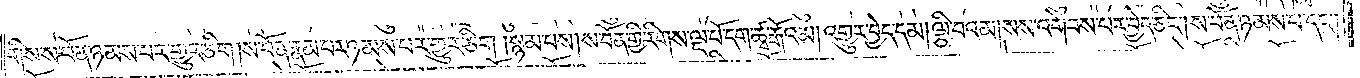གིས་ས་བོན་ཉམས་པར་གྱུར་ཅིག །ས་བོན་རྣམ་པར་ཉམས་པར་གྱུར་ཅིག། སྙམ་པས། ས་བོན་གྱི་རིགས་ལྔ་པོ་དག་ཚྭ་རྒོའམ། འགྱུར་བྱེད་དམ། ལྕི་བའམ། སས་འགེབས་པར་བྱེད་ཅིང༌། ས་བོན་ཉམས་པ་དང༌།
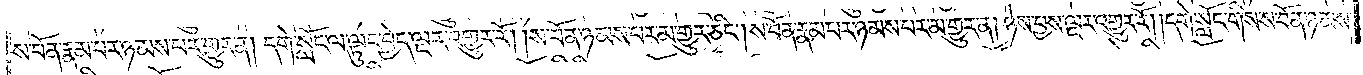ས་བོན་རྣམ་པར་ཉམས་པར་གྱུར་ན། དགེ་སློང་ལ་ལྟུང་བྱེད་ལྔར་འགྱུར་རོ། །ས་བོན་ཉམས་པར་མ་གྱུར་ཅིང༌། ས་བོན་རྣམ་པར་ཉམས་པར་མ་གྱུར་ན། ཉེས་བྱས་ལྔར་འགྱུར་རོ། །དགེ་སློང་གིས་ས་བོན་ཉམས་
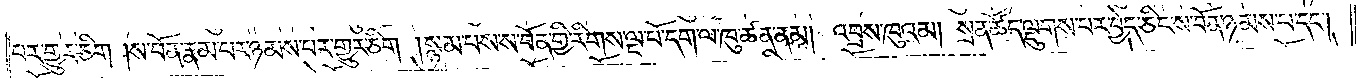པར་གྱུར་ཅིག། ས་བོན་རྣམ་པར་ཉམས་པར་གྱུར་ཅིག །སྙམ་པས་ས་བོན་གྱི་རིགས་ལྔ་པོ་དག་ལ་ཁུ་ཚན་ནམ། འབྲས་ཁུའམ། སྲན་ཚོད་ལྡུགས་པར་བྱེད་ཅིང་ས་བོན་ཉམས་པ་དང༌།
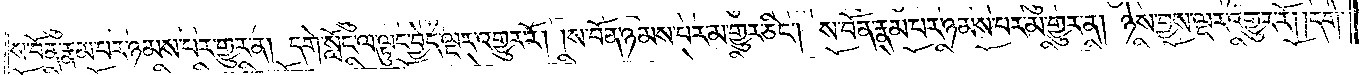ས་བོན་རྣམ་པར་ཉམས་པར་གྱུར་ན། དགེ་སློང་ལ་ལྟུང་བྱེད་ལྔར་འགྱུར་རོ། །ས་བོན་ཉམས་པར་མ་གྱུར་ཅིང༌། ས་བོན་རྣམ་པར་ཉམས་པར་མ་གྱུར་ན། ཉེས་བྱས་ལྔར་འགྱུར་རོ། །དགེ་
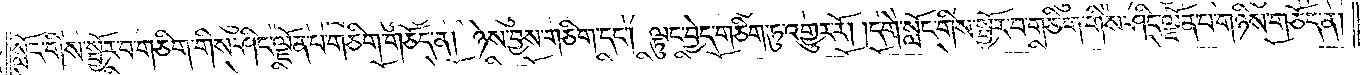སློང་གིས་སྦྱོར་བ་གཅིག་གིས་ཤིང་ལྗོན་པ་གཅིག་གཅོད་ན། ཉེས་བྱས་གཅིག་དང༌། ལྟུང་བྱེད་གཅིག་ཏུ་འགྱུར་རོ། །དགེ་སློང་གིས་སྦྱོར་བ་གཅིག་གིས་ཤིང་ལྗོན་པ་གཉིས་གཅོད་ན།
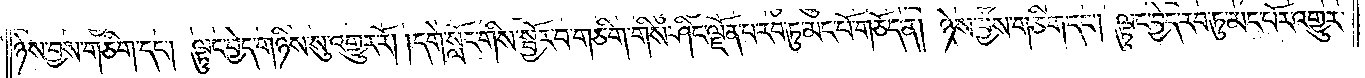ཉེས་བྱས་གཅིག་དང༌། ལྟུང་བྱེད་གཉིས་སུ་འགྱུར་རོ། །དགེ་སློང་གིས་སྦྱོར་བ་གཅིག་གིས་ཤིང་ལྗོན་པ་རབ་ཏུ་མང་པོ་གཅོད་ན། ཉེས་བྱས་གཅིག་དང༌། ལྟུང་བྱེད་རབ་ཏུ་མང་པོར་འགྱུར་
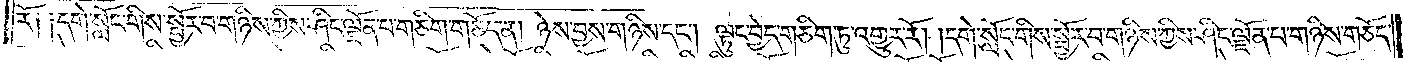རོ། །དགེ་སློང་གིས་སྦྱོར་བ་གཉིས་ཀྱིས་ཤིང་ལྗོན་པ་གཅིག་གཅོད་ན། ཉེས་བྱས་གཉིས་དང༌། ལྟུང་བྱེད་གཅིག་ཏུ་འགྱུར་རོ། །དགེ་སློང་གིས་སྦྱོར་བ་གཉིས་ཀྱིས་ཤིང་ལྗོན་པ་གཉིས་གཅོད་
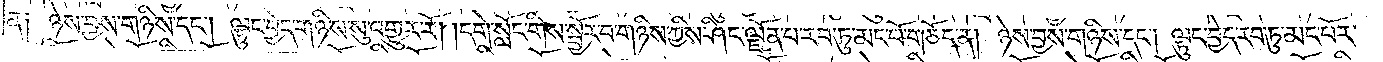ན། ཉེས་བྱས་གཉིས་དང༌། ལྟུང་བྱེད་གཉིས་སུ་འགྱུར་རོ། །དགེ་སློང་གིས་སྦྱོར་བ་གཉིས་ཀྱིས་ཤིང་ལྗོན་པ་རབ་ཏུ་མང་པོ་གཅོད་ན། ཉེས་བྱས་གཉིས་དང༌། ལྟུང་བྱེད་རབ་ཏུ་མང་པོར་
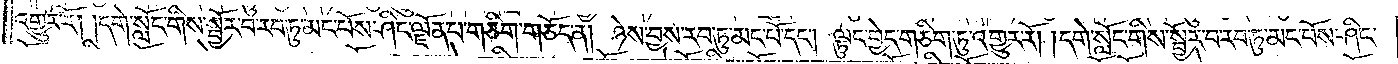འགྱུར་རོ། །དགེ་སློང་གིས་སྦྱོར་བ་རབ་ཏུ་མང་པོས་ཤིང་ལྗོན་པ་གཅིག་གཅོད་ན། ཉེས་བྱས་རབ་ཏུ་མང་པོ་དང༌། ལྟུང་བྱེད་གཅིག་ཏུ་འགྱུར་རོ། །དགེ་སློང་གིས་སྦྱོར་བ་རབ་ཏུ་མང་པོས་ཤིང་
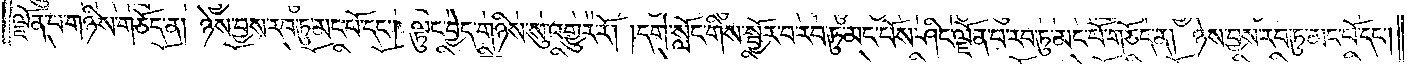ལྗོན་པ་གཉིས་གཅོད་ན། ཉེས་བྱས་རབ་ཏུ་མང་པོ་དང༌། ལྟུང་བྱེད་གཉིས་སུ་འགྱུར་རོ། །དགེ་སློང་གིས་སྦྱོར་བ་རབ་ཏུ་མང་པོས་ཤིང་ལྗོན་པ་རབ་ཏུ་མང་པོ་གཅོད་ན། ཉེས་བྱས་རབ་ཏུ་མང་པོ་དང༌།
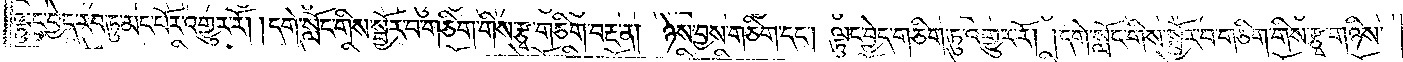ལྟུང་བྱེད་རབ་ཏུ་མང་པོར་འགྱུར་རོ། །དགེ་སློང་གིས་སྦྱོར་བ་གཅིག་གིས་རྩྭ་གཅིག་བརྔ་ན། ཉེས་བྱས་གཅིག་དང༌། ལྟུང་བྱེད་གཅིག་ཏུ་འགྱུར་རོ། །དགེ་སློང་གིས་སྦྱོར་བ་གཅིག་གིས་རྩྭ་གཉིས་
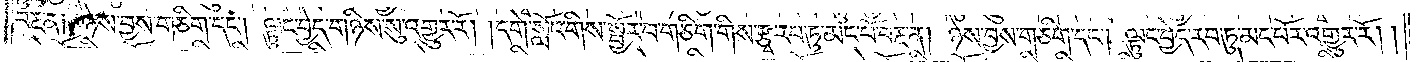བརྔ་ན། ཉེས་བྱས་གཅིག་དང༌། ལྟུང་བྱེད་གཉིས་སུ་འགྱུར་རོ། །དགེ་སློང་གིས་སྦྱོར་བ་གཅིག་གིས་རྩྭ་རབ་ཏུ་མང་པོ་བརྔ་ན། ཉེས་བྱས་གཅིག་དང༌། ལྟུང་བྱེད་རབ་ཏུ་མང་པོར་འགྱུར་རོ། །
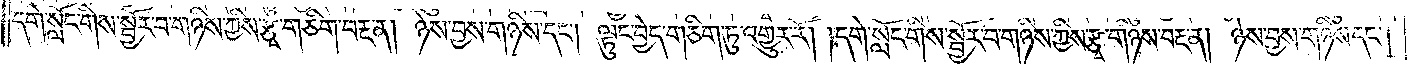དགེ་སློང་གིས་སྦྱོར་བ་གཉིས་ཀྱིས་རྩྭ་གཅིག་བརྔ་ན། ཉེས་བྱས་གཉིས་དང༌། ལྟུང་བྱེད་གཅིག་ཏུ་འགྱུར་རོ། །དགེ་སློང་གིས་སྦྱོར་བ་གཉིས་ཀྱིས་རྩྭ་གཉིས་བརྔ་ན། ཉེས་བྱས་གཉིས་དང༌།
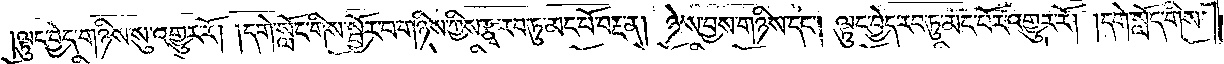ལྟུང་བྱེད་གཉིས་སུ་འགྱུར་རོ། །དགེ་སློང་གིས་སྦྱོར་བ་གཉིས་ཀྱིས་རྩྭ་རབ་ཏུ་མང་པོ་བརྔ་ན། ཉེས་བྱས་གཉིས་དང༌། ལྟུང་བྱེད་རབ་ཏུ་མང་པོར་འགྱུར་རོ། །དགེ་སློང་གིས་
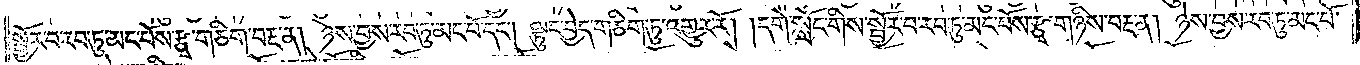སྦྱོར་བ་རབ་ཏུ་མང་པོས་རྩྭ་གཅིག་བརྔ་ན། ཉེས་བྱས་རབ་ཏུ་མང་པོ་དང༌། ལྟུང་བྱེད་གཅིག་ཏུ་འགྱུར་རོ། །དགེ་སློང་གིས་སྦྱོར་བ་རབ་ཏུ་མང་པོས་རྩྭ་གཉིས་བརྔ་ན། ཉེས་བྱས་རབ་ཏུ་མང་པོ་
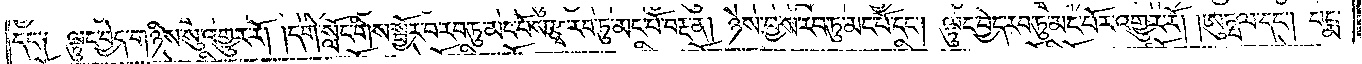དང༌། ལྟུང་བྱེད་གཉིས་སུ་འགྱུར་རོ། །དགེ་སློང་གིས་སྦྱོར་བ་རབ་ཏུ་མང་པོས་རྩྭ་རབ་ཏུ་མང་པོ་བརྔ་ན། ཉེས་བྱས་རབ་ཏུ་མང་པོ་དང༌། ལྟུང་བྱེད་རབ་ཏུ་མང་པོར་འགྱུར་རོ། །ཨུཏྤལ་དང༌། པདྨ་
